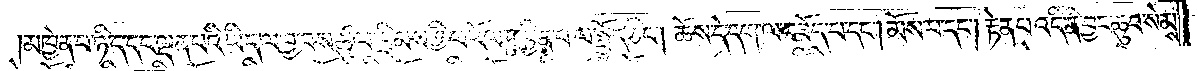མཁྱེན་པ་ཉིད་དང་ལྡན་པའི་ཡིད་ལ་བྱ་བས་ཚུལ་ཁྲིམས་ཀྱི་ཕ་རོལ་ཏུ་ཕྱིན་པ་ལ་སྤྱོད་ཅིང༌། ཆོས་དེ་དག་ལ་བཟོད་པ་དང༌། མོས་པ་དང༌། རྟེན་པ་འདི་ནི་བྱང་ཆུབ་སེམས་
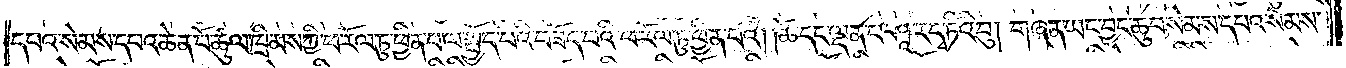དཔའ་སེམས་དཔའ་ཆེན་པོ་ཚུལ་ཁྲིམས་ཀྱི་ཕ་རོལ་ཏུ་ཕྱིན་པ་ལ་སྤྱོད་པའི་བཟོད་པའི་ཕ་རོལ་ཏུ་ཕྱིན་པའོ། །ཚེ་དང་ལྡན་པ་ཤཱ་རདྭ་ཏིའི་བུ། གཞན་ཡང་བྱང་ཆུབ་སེམས་དཔའ་སེམས་
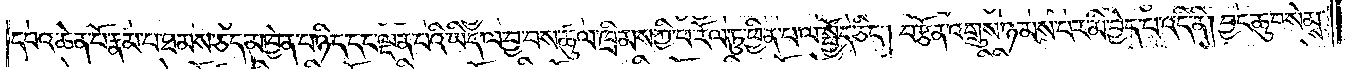དཔའ་ཆེན་པོ་རྣམ་པ་ཐམས་ཅད་མཁྱེན་པ་ཉིད་དང་ལྡན་པའི་ཡིད་ལ་བྱ་བས་ཚུལ་ཁྲིམས་ཀྱི་ཕ་རོལ་ཏུ་ཕྱིན་པ་ལ་སྤྱོད་ཅིང༌། བརྩོན་འགྲུས་ཉམས་པར་མི་བྱེད་པ་འདི་ནི། བྱང་ཆུབ་སེམས་
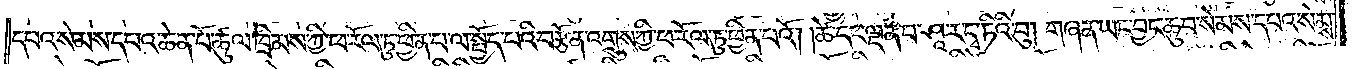དཔའ་སེམས་དཔའ་ཆེན་པོ་ཚུལ་ཁྲིམས་ཀྱི་ཕ་རོལ་ཏུ་ཕྱིན་པ་ལ་སྤྱོད་པའི་བརྩོན་འགྲུས་ཀྱི་ཕ་རོལ་ཏུ་ཕྱིན་པའོ། །ཚེ་དང་ལྡན་པ་ཤཱ་རདྭ་ཏིའི་བུ། གཞན་ཡང་བྱང་ཆུབ་སེམས་དཔའ་སེམས་
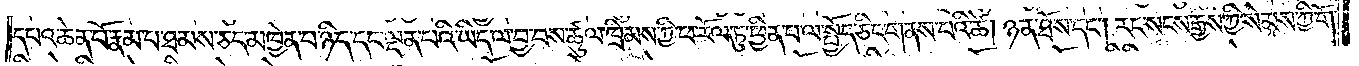དཔའ་ཆེན་པོ་རྣམ་པ་ཐམས་ཅད་མཁྱེན་པ་ཉིད་དང་ལྡན་པའི་ཡིད་ལ་བྱ་བས་ཚུལ་ཁྲིམས་ཀྱི་ཕ་རོལ་ཏུ་ཕྱིན་པ་ལ་སྤྱོད་ཅིང་གནས་པའི་ཚེ། ཉན་ཐོས་དང༌། རང་སངས་རྒྱས་ཀྱི་སེམས་ཀྱི་གོ་
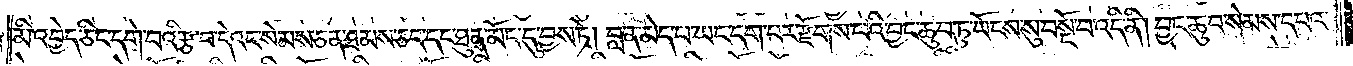མི་འབྱེད་ཅིང་དགེ་བའི་རྩ་བ་དེའང་སེམས་ཅན་ཐམས་ཅད་དང་ཐུན་མོང་དུ་བྱས་ཏེ། བླ་ན་མེད་པ་ཡང་དག་པར་རྫོགས་པའི་བྱང་ཆུབ་ཏུ་ཡོངས་སུ་བསྔོ་བ་འདི་ནི། བྱང་ཆུབ་སེམས་དཔའ་
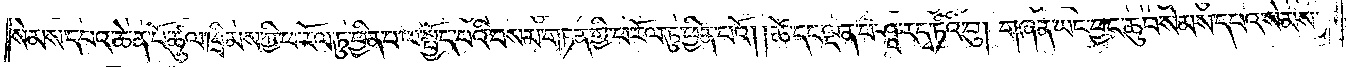སེམས་དཔའ་ཆེན་པོ་ཚུལ་ཁྲིམས་ཀྱི་ཕ་རོལ་ཏུ་ཕྱིན་པ་ལ་སྤྱོད་པའི་བསམ་གཏན་གྱི་ཕ་རོལ་ཏུ་ཕྱིན་པའོ། །ཚེ་དང་ལྡན་པ་ཤཱ་རདྭ་ཏིའི་བུ། གཞན་ཡང་བྱང་ཆུབ་སེམས་དཔའ་སེམས་
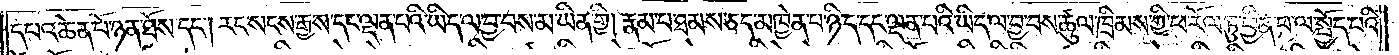དཔའ་ཆེན་པོ་ཉན་ཐོས་དང༌། རང་སངས་རྒྱས་དང་ལྡན་པའི་ཡིད་ལ་བྱ་བས་མ་ཡིན་གྱི། རྣམ་པ་ཐམས་ཅད་མཁྱེན་པ་ཉིད་དང་ལྡན་པའི་ཡིད་ལ་བྱ་བས་ཚུལ་ཁྲིམས་ཀྱི་ཕ་རོལ་ཏུ་ཕྱིན་པ་ལ་སྤྱོད་པའི་
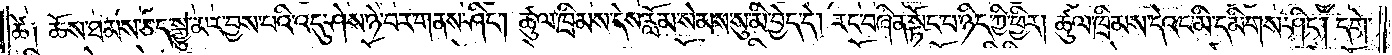ཚེ། ཆོས་ཐམས་ཅད་སྒྱུ་མར་བྱས་པའི་འདུ་ཤེས་ཉེ་བར་གནས་ཤིང༌། ཚུལ་ཁྲིམས་དེས་རློམ་སེམས་སུ་མི་བྱེད་དེ། རང་བཞིན་སྟོང་པ་ཉིད་ཀྱི་ཕྱིར། ཚུལ་ཁྲིམས་དེའང་མི་དམིགས་ཤིང༌། དགེ་
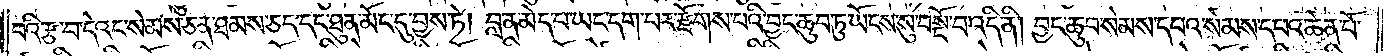བའི་རྩ་བ་དེའང་སེམས་ཅན་ཐམས་ཅད་དང་ཐུན་མོང་དུ་བྱས་ཏེ། བླ་ན་མེད་པ་ཡང་དག་པར་རྫོགས་པའི་བྱང་ཆུབ་ཏུ་ཡོངས་སུ་བསྔོ་བ་འདི་ནི། བྱང་ཆུབ་སེམས་དཔའ་སེམས་དཔའ་ཆེན་པོ་
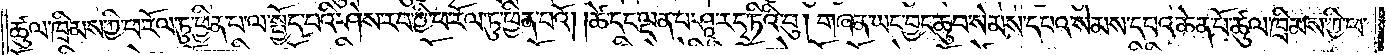ཚུལ་ཁྲིམས་ཀྱི་ཕ་རོལ་ཏུ་ཕྱིན་པ་ལ་སྤྱོད་པའི་ཤེས་རབ་ཀྱི་ཕ་རོལ་ཏུ་ཕྱིན་པའོ། །ཚེ་དང་ལྡན་པ་ཤཱ་རདྭ་ཏིའི་བུ། གཞན་ཡང་བྱང་ཆུབ་སེམས་དཔའ་སེམས་དཔའ་ཆེན་པོ་ཚུལ་ཁྲིམས་ཀྱི་ཕ་
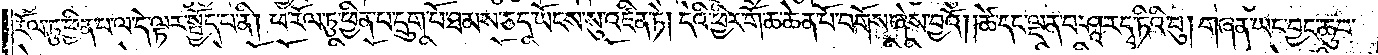རོལ་ཏུ་ཕྱིན་པ་ལ་དེ་ལྟར་སྤྱོད་པ་ནི། ཕ་རོལ་ཏུ་ཕྱིན་པ་དྲུག་པོ་ཐམས་ཅད་ཡོངས་སུ་འཛིན་ཏེ། དེའི་ཕྱིར་གོ་ཆ་ཆེན་པོ་བགོས་ཞེས་བྱའོ། །ཚེ་དང་ལྡན་པ་ཤཱ་རདྭ་ཏིའི་བུ། གཞན་ཡང་བྱང་ཆུབ་
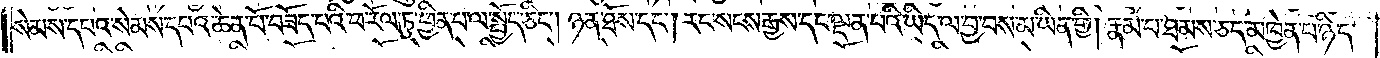སེམས་དཔའ་སེམས་དཔའ་ཆེན་པོ་བཟོད་པའི་ཕ་རོལ་ཏུ་ཕྱིན་པ་ལ་སྤྱོད་ཅིང༌། ཉན་ཐོས་དང༌། རང་སངས་རྒྱས་དང་ལྡན་པའི་ཡིད་ལ་བྱ་བས་མ་ཡིན་གྱི། རྣམ་པ་ཐམས་ཅད་མཁྱེན་པ་ཉིད་
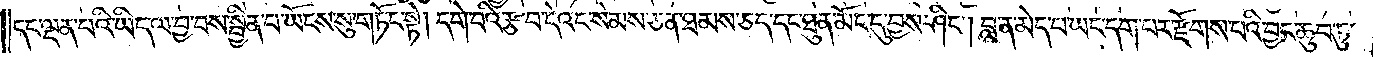དང་ལྡན་པའི་ཡིད་ལ་བྱ་བས་སྦྱིན་པ་ཡོངས་སུ་གཏོང་སྟེ། དགེ་བའི་རྩ་བ་དེའང་སེམས་ཅན་ཐམས་ཅད་དང་ཐུན་མོང་དུ་བྱས་ཤིང༌། བླ་ན་མེད་པ་ཡང་དག་པར་རྫོགས་པའི་བྱང་ཆུབ་ཏུ་
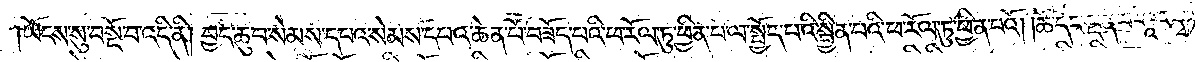ཡོངས་སུ་བསྔོ་བ་འདི་ནི། བྱང་ཆུབ་སེམས་དཔའ་སེམས་དཔའ་ཆེན་པོ་བཟོད་པའི་ཕ་རོལ་ཏུ་ཕྱིན་པ་ལ་སྤྱོད་པའི་སྦྱིན་པའི་ཕ་རོལ་ཏུ་ཕྱིན་པའོ། །ཚེ་དང་ལྡན་པ་ཤཱ་རདྭ་ཏིའི་
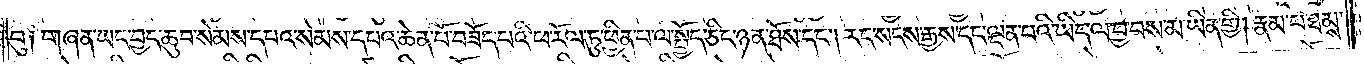བུ། གཞན་ཡང་བྱང་ཆུབ་སེམས་དཔའ་སེམས་དཔའ་ཆེན་པོ་བཟོད་པའི་ཕ་རོལ་ཏུ་ཕྱིན་པ་ལ་སྤྱོད་ཅིང་ཉན་ཐོས་དང༌། རང་སངས་རྒྱས་དང་ལྡན་པའི་ཡིད་ལ་བྱ་བས་མ་ཡིན་གྱི། རྣམ་པ་ཐམས་
